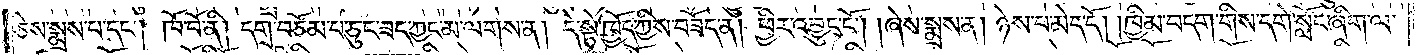ཅེས་སྨྲས་པ་དང༌། ཁོ་བོ་ནི། དགྲ་བཅོམ་པ་ཅུང་ཟད་ཀྱང་མ་ལགས་ན། དེ་སྟེ་ཁྱོད་ཀྱིས་བཟོད་ན། ཕྱིར་འབྱུང་ངོ༌། །ཞེས་སྨྲས་ན། ཉེས་པ་མེད་དོ། །ཁྱིམ་བདག་གིས་དགེ་སློང་ཞིག་ལ་
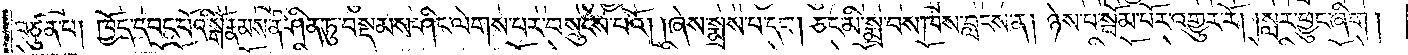བཙུན་པ། ཁྱོད་དབང་པོའི་སྒོ་རྣམས་ནི་ཤིན་ཏུ་བསྡམས་ཤིང་ལེགས་པར་བསྲུངས་པའོ། །ཞེས་སྨྲས་པ་དང༌། ཅང་མི་སྨྲ་བས་ཁས་བླངས་ན། ཉེས་པ་སྦོམ་པོར་འགྱུར་རོ། །སླར་ཕྱུང་ཞིག །
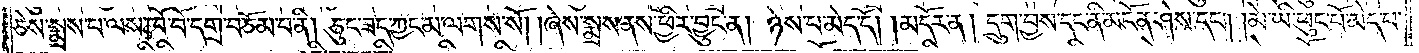ཅེས་སྨྲས་པ་ལས་ཁོ་བོ་དགྲ་བཅོམ་པ་ནི། ཅུང་ཟད་ཀྱང་མ་ལགས་སོ། །ཞེས་སྨྲས་ནས་ཕྱིར་བྱུང་ན། ཉེས་པ་མེད་དོ། །མདོར་ན། དྲུག་བྱས་དང་ནི་མངོན་ཤེས་དང༌། །མེ་ཡི་ཕུང་པོ་མེད་པ་
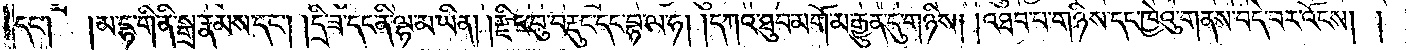དང༌། །མ་དྷ་གི་ནི་སྒྲ་རྣམས་དང༌། །དྲི་ཟ་དང་ནི་ལྷ་མ་ཡིན། །རྫིང་བུ་བརྡུང་དང་བྷ་ལ་ཧ། །དཀའ་ཐུབ་མགོ་མ་རྒྱུན་དུ་གཉིས། །འཐབ་པ་གཉིས་དང་ཁྱེའུ་གནས་བདེ་བར་འོངས། །
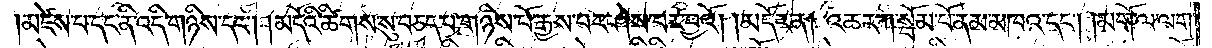མཛེས་པ་དང་ནི་འདི་གཉིས་དང༌། །མདོའི་ཚིགས་སུ་བཅད་པ་གཉིས་པོ་རྒྱས་པར་ཤེས་པར་བྱའོ། །མདོར་ན། འཆར་ཀ་སྦོམ་པོ་ནམ་མཁའ་དང༌། །མགོ་ལ་ལག་
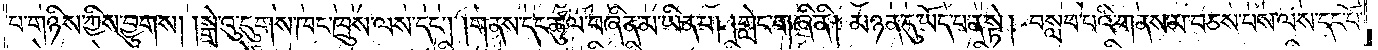པ་གཉིས་ཀྱིས་བྱུགས། །སྒྲེའུ་དུགས་ཁང་ཁྲུས་ལས་དང༌། །གནས་དང་ཚུལ་བཞིན་མ་ཡིན་པ། །གླེང་གཞི་ནི། །མཉན་དུ་ཡོད་པ་ན་སྟེ། བསླབ་པའི་གནས་མ་བཅས་པས་ལས་དང་པོ་
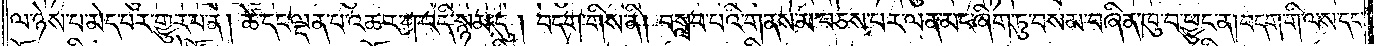ལ་ཉེས་པ་མེད་པར་གྱུར་པ་ན། ཚེ་དང་ལྡན་པ་འཆར་ཀ་འདི་སྙམ་དུ། བདག་གིས་ནི། བསླབ་པའི་གནས་མ་བཅས་པར་ལན་མང་ཞིག་ཏུ་བསམ་བཞིན་ཁུ་བ་ཕྱུང་ན། བདག་གི་ལས་དང་
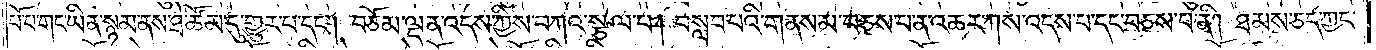པོ་པ་གང་ཡིན་སྙམ་ནས་ཐེ་ཚོམ་དུ་གྱུར་པ་དང༌། བཅོམ་ལྡན་འདས་ཀྱིས་བཀའ་སྩལ་པ། བསླབ་པའི་གནས་མ་བཅས་པ་ན་འཆར་ཀས་འདས་པ་དང་བཅས་པ་ནི། ཐམས་ཅད་ཀྱང་
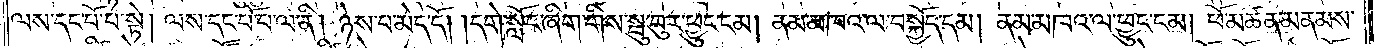ལས་དང་པོ་པ་སྟེ། ལས་དང་པོ་པ་ལ་ནི། ཉེས་པ་མེད་དོ། །དགེ་སློང་ཞིག་གིས་སྦུ་བུར་ཕྱུང་ངམ། ནམ་མཁའ་ལ་བསྐྱོད་དམ། ནམ་མཁའ་ལ་ཕྱུང་ངམ། ཕོ་མཚན་མནམས་
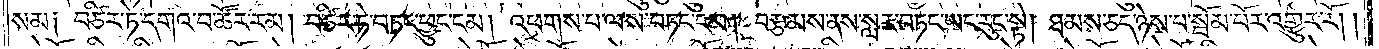སམ༑ བཙིར་ཏེ་དགའ་བ་ཚོར་རམ། བཙིར་ཏེ་བཏང་ཕྱུང་ངམ། འཕགས་པ་ལས་བཏང་ངམ། བརྩམས་ནས་སླར་བཏང་ཡང་རུང་སྟེ། ཐམས་ཅད་ཉེས་པ་སྦོམ་པོར་འགྱུར་རོ། །
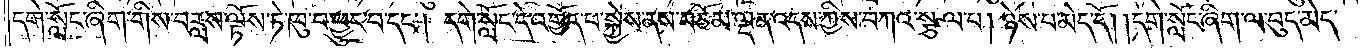དགེ་སློང་ཞིག་གིས་བརླས་ལྟོས་ཏེ་ཁུ་བ་ཕྱུང་བ་དང༌། དགེ་སློང་དེ་འགྱོད་པ་སྐྱེས་ནས་བཅོམ་ལྡན་འདས་ཀྱིས་བཀའ་སྩལ་པ། ཉེས་པ་མེད་དོ། །དགེ་སློང་ཞིག་ལ་བུད་མེད་
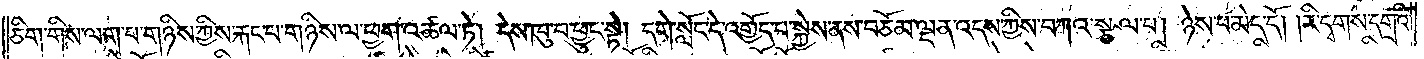ཅིག་གིས་ལག་པ་གཉིས་ཀྱིས་རྐང་པ་གཉིས་ལ་ཕྱག་འཚལ་ཏེ། དེས་ཁུ་བ་ཕྱུང་སྟེ། དགེ་སློང་དེ་འགྱོད་པ་སྐྱེས་ནས་བཅོམ་ལྡན་འདས་ཀྱིས་བཀའ་སྩལ་པ། ཉེས་པ་མེད་དོ་།རི་དྭགས་དགྲའི་
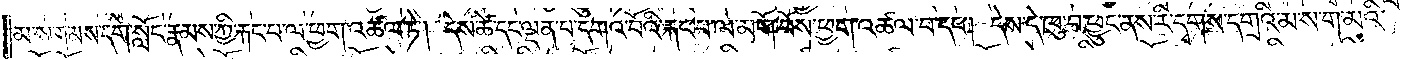མ་ས་ག་མས་དགེ་སློང་རྣམས་ཀྱི་རྐང་པ་ལ་ཕྱག་འཚལ་ཏེ། དེས་ཚེ་དང་ལྡན་པ་དགའ་བོའི་རྐང་པ་ལ་མགོ་བོས་ཕྱག་འཚལ་བ་དང༌། དེས་དེ་ཁུ་བ་ཕྱུང་ནས་རི་དྭགས་དགྲའི་མ་ས་ག་མའི་
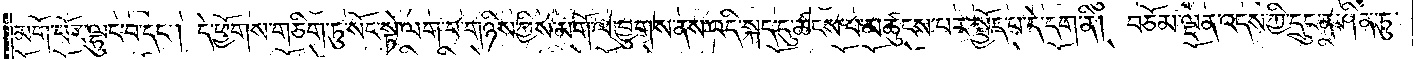མགོ་བོ་ལྷུང་བ་དང༌། དེ་ཕྱོགས་གཅིག་ཏུ་སོང་སྟེ་ལག་པ་གཉིས་ཀྱིས་མགོ་ལ་བྱུགས་ནས་འདི་སྐད་དུ་ཚངས་པ་མཚུངས་པར་སྤྱོད་པ་དེ་དག་ནི། བཅོམ་ལྡན་འདས་ཀྱི་དྲུང་ན་ཤིན་ཏུ་
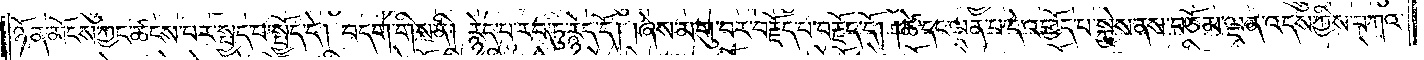ཉོན་མོངས་ཀྱང་ཚངས་པར་སྤྱད་པ་སྤྱོད་དེ། བདག་གིས་ནི། རྙེད་པ་རབ་ཏུ་རྙེད་དོ། །ཞེས་མགུ་བར་བརྗོད་པ་བརྗོད་དོ། །ཚེ་དང་ལྡན་པ་དེ་འགྱོད་པ་སྐྱེས་ནས་བཅོམ་ལྡན་འདས་ཀྱིས་བཀའ་
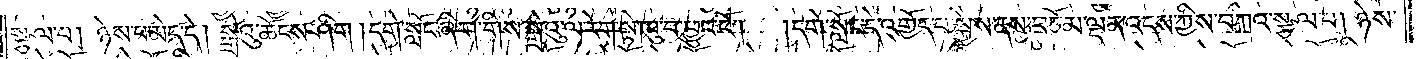སྩལ་པ། ཉེས་པ་མེད་དེ། སྒྲེའུ་ཆོངས་ཤིག །དགེ་སློང་ཞིག་གིས་སྒྲེའུ་ལ་རེག་སྟེ་ཁུ་བ་ཕྱུང་ངོ༌། །དགེ་སློང་དེ་འགྱོད་པ་སྐྱེས་ནས་བཅོམ་ལྡན་འདས་ཀྱིས་བཀའ་སྩལ་པ། ཉེས་
